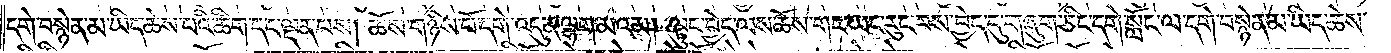དགེ་བསྙེན་མ་ཡིད་ཆེས་པའི་ཚིག་དང་ལྡན་པས། ཆོས་གཉིས་པོ་དགེ་འདུན་ལྷག་མའམ། ལྟུང་བྱེད་ལས་ཆོས་གང་ཡང་རུང་བས་བྱེད་དུ་གཞུག་ཅིང་དགེ་སློང་ལ་དགེ་བསྙེན་མ་ཡིད་ཆེས་
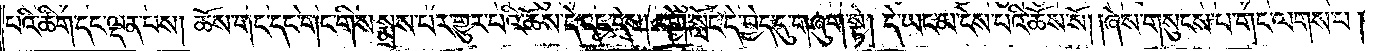པའི་ཚིག་དང་ལྡན་པས། ཆོས་གང་དང་གང་གིས་སྨྲས་པར་གྱུར་པའི་ཆོས་དེ་དང་དེས། དགེ་སློང་དེ་བྱེད་དུ་གཞུག་སྟེ། དེ་ཡང་མ་ངེས་པའི་ཆོས་སོ། །ཞེས་གསུངས་པ་གང་ལགས་པ།
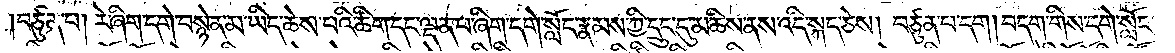།བཙུན་པ། རེ་ཞིག་དགེ་བསྙེན་མ་ཡིད་ཆེས་པའི་ཚིག་དང་ལྡན་པ་ཞིག་དགེ་སློང་རྣམས་ཀྱི་དྲུང་དུ་མཆིས་ནས་འདི་སྐད་ཅེས། བཙུན་པ་དག །བདག་གིས་དགེ་སློང་
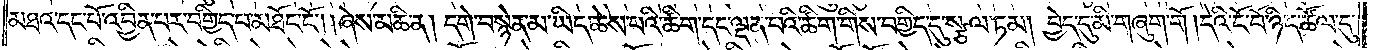མཐའ་དང་པོ་འབྱིན་པར་བགྱིད་པ་མཐོང་ངོ༌། །ཞེས་མཆི་ན། དགེ་བསྙེན་མ་ཡིད་ཆེས་པའི་ཚིག་དང་ལྡན་པའི་ཚིག་གིས་བགྱིད་དུ་སྩལ་ཏམ། བྱེད་དུ་མི་གཞུག་གོ །དེའི་ངོ་བོ་ཉིད་ཚོལ་དུ་
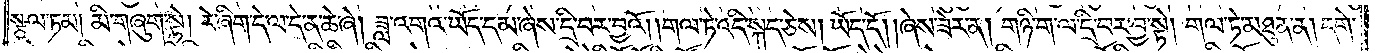སྩལ་ཏམ། མི་གཞུག་སྟེ། རེ་ཞིག་དེ་ལ་དེ་ན་ཆེ་ཞེ། ཟླ་འགའ་ཡོད་དམ་ཞེས་དྲི་བར་བྱའོ། །གལ་ཏེ་འདི་སྐད་ཅེས། ཡོད་དོ། །ཞེས་ཟེར་ན། གཉི་ག་ལ་དྲི་བར་བྱ་སྟེ། གལ་ཏེ་མཐུན་ན། དགེ་
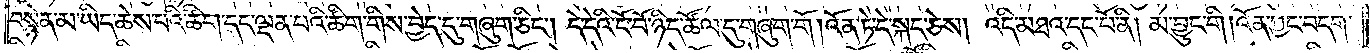བསྙེན་མ་ཡིད་ཆེས་པའི་ཚིག་དང་ལྡན་པའི་ཚིག་གིས་བྱེད་དུ་གཞུག་ཅིང༌། དེ་དེའི་ངོ་བོ་ཉིད་ཚོལ་དུ་གཞུག་གོ །འོན་ཏེ་དེ་སྐད་ཅེས། འདི་མཐའ་དང་པོ་ནི། མ་བྱུང་གི །འོན་ཀྱང་བདག་
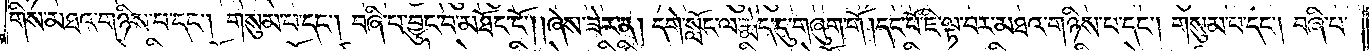གིས་མཐའ་གཉིས་པ་དང༌། གསུམ་པ་དང༌། བཞི་པ་བྱུང་བ་མཐོང་ངོ༌། །ཞེས་ཟེར་ན། དགེ་སློང་ལ་རྨེད་དུ་གཞུག་གོ །དང་པོ་ཇི་ལྟ་བར་མཐའ་གཉིས་པ་དང༌། གསུམ་པ་དང༌། བཞི་པ་
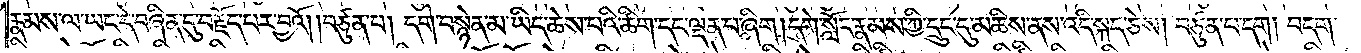རྣམས་ལ་ཡང་དེ་བཞིན་དུ་བརྗོད་པར་བྱའོ། །བཙུན་པ། དགེ་བསྙེན་མ་ཡིད་ཆེས་པའི་ཚིག་དང་ལྡན་པ་ཞིག །དགེ་སློང་རྣམས་ཀྱི་དྲུང་དུ་མཆིས་ནས་འདི་སྐད་ཅེས། བཙུན་པ་དག། བདག་
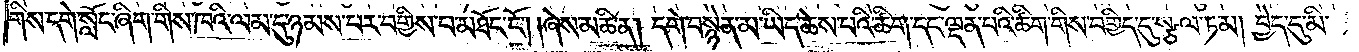གིས་དགེ་སློང་ཞིག་གིས་ཁའི་ལམ་དུ་ཉམས་པར་བགྱིས་པ་མཐོང་ངོ༌། །ཞེས་མཆི་ན། དགེ་བསྙེན་མ་ཡིད་ཆེས་པའི་ཚིག་དང་ལྡན་པའི་ཚིག་གིས་བགྱིད་དུ་སྩལ་ཏམ། བྱེད་དུ་མི་
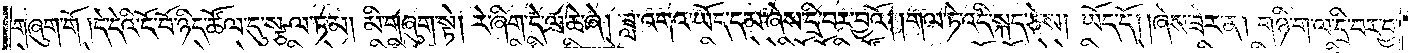གཞུག་གོ །དེ་དེའི་ངོ་བོ་ཉིད་ཚོལ་དུ་སྩལ་ཏམ། མི་གཞུག་སྟེ། རེ་ཞིག་དེ་ལ་ཆེ་ཞེ། ཟླ་འགའ་ཡོད་དམ་ཞེས་དྲི་བར་བྱའོ། །གལ་ཏེ་འདི་སྐད་ཅེས། ཡོད་དོ། །ཞེས་ཟེར་ན། གཉི་ག་ལ་དྲི་བར་བྱ་
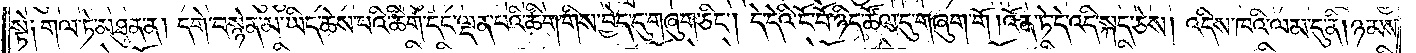སྟེ༑ གལ་ཏེ་མཐུན་ན། དགེ་བསྙེན་མ་ཡིད་ཆེས་པའི་ཚིག་དང་ལྡན་པའི་ཚིག་གིས་བྱེད་དུ་གཞུག་ཅིང༌། དེ་དེའི་ངོ་བོ་ཉིད་ཚོལ་དུ་གཞུག་གོ །འོན་ཏེ་དེ་འདི་སྐད་ཅེས། འདིས་ཁའི་ལམ་དུ་ནི། ཉམས་
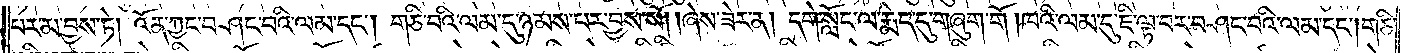པར་མ་བྱས་ཏེ། འོན་ཀྱང་བཤང་བའི་ལམ་དང༌། གཅི་བའི་ལམ་དུ་ཉམས་པར་བྱས་སོ། །ཞེས་ཟེར་ན། དགེ་སློང་ལ་རྨེད་དུ་གཞུག་གོ །ཁའི་ལམ་དུ་ཇི་ལྟ་བར་བཤང་བའི་ལམ་དང༌། གཅི་
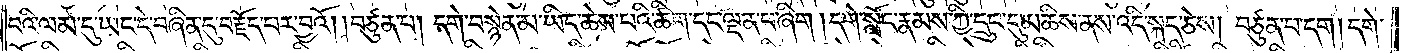བའི་ལམ་དུ་ཡང་དེ་བཞིན་དུ་བརྗོད་པར་བྱའོ། །བཙུན་པ། དགེ་བསྙེན་མ་ཡིད་ཆེས་པའི་ཚིག་དང་ལྡན་པ་ཞིག །དགེ་སློང་རྣམས་ཀྱི་དྲུང་དུ་མཆིས་ནས་འདི་སྐད་ཅེས། བཙུན་པ་དག །དགེ་
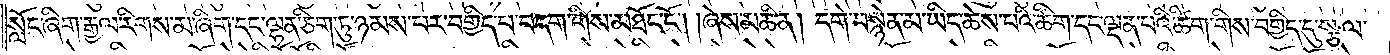སློང་ཞིག་རྒྱལ་རིགས་མ་ཞིག་དང་ལྷན་ཅིག་ཏུ་ཉམས་པར་བགྱིད་པ་བདག་གིས་མཐོང་ངོ༌། །ཞེས་མཆི་ན། དགེ་བསྙེན་མ་ཡིད་ཆེས་པའི་ཚིག་དང་ལྡན་པའི་ཚིག་གིས་བགྱིད་དུ་སྩལ་
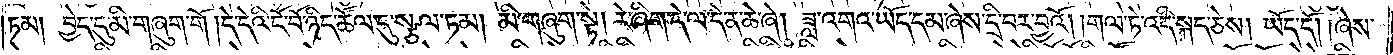ཏམ། བྱེད་དུ་མི་གཞུག་གོ །དེ་དེའི་ངོ་བོ་ཉིད་ཚོལ་དུ་སྩལ་ཏམ། མི་གཞུག་སྟེ། རེ་ཞིག་དེ་ལ་དེ་ན་ཆེ་ཞེ། ཟླ་འགའ་ཡོད་དམ་ཞེས་དྲི་བར་བྱའོ། །གལ་ཏེ་འདི་སྐད་ཅེས། ཡོད་དོ། །ཞེས་
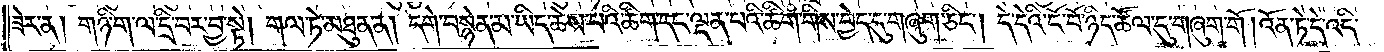ཟེར་ན། གཉི་ག་ལ་དྲི་བར་བྱ་སྟེ། གལ་ཏེ་མཐུན་ན། དགེ་བསྙེན་མ་ཡིད་ཆེས་པའི་ཚིག་དང་ལྡན་པའི་ཚིག་གིས་བྱེད་དུ་གཞུག་ཅིང༌། དེ་དེའི་ངོ་བོ་ཉིད་ཚོལ་དུ་གཞུག་གོ །འོན་ཏེ་དེ་འདི་
